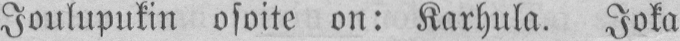Joulupukin osoite on: Karhula. Joka
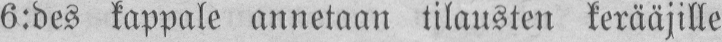6:des kappale annetaan tilausten kerääjille
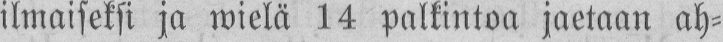ilmaiseksi ja wielä 14 palkintoa jaetaan ah-
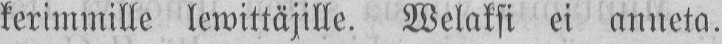kerimmille lewittäjille. Welaksi ei anneta.
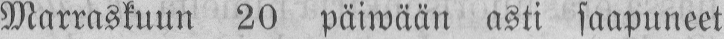Marraskuun 20 päiwään asti saapuneet
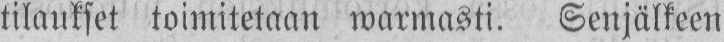tilaukset toimitetaan warmasti. Senjälkeen
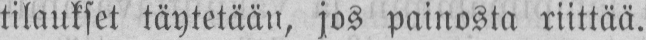tilaukset täytetään, jos painosta riittää.
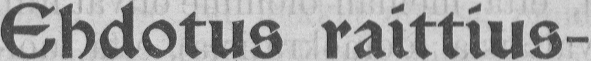Ehdotus raittius-
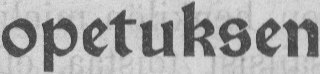opetuksen
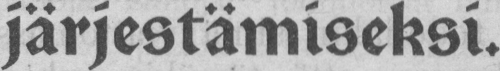järjestämiseksi.
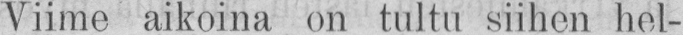Viime aikoina on tultu siihen hel-
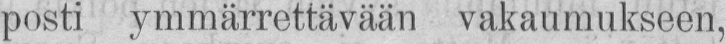posti ymmärrettävään vakaumukseen,
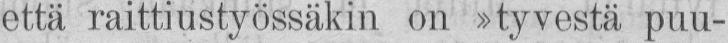että raittiustyössäkin on »tyvestä puu-
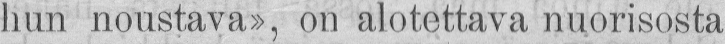hun noustava», on alotettava nuorisosta
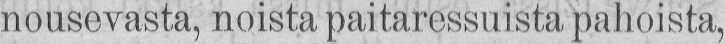nousevasta, noista paitaressuista pahoista,
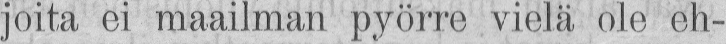joita ei maailman pyörre vielä ole eh-
